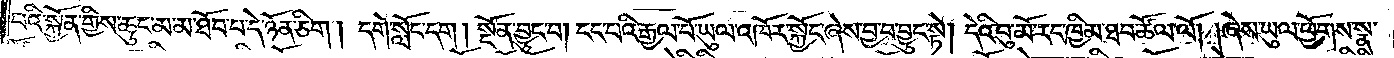པའི་སྐྱོན་གྱིས་ཆུང་མ་མ་ཐོབ་པ་དེ་ཉོན་ཅིག །དགེ་སློང་དག །སྔོན་བྱུང་བ། ངང་པའི་རྒྱལ་པོ་ཡུལ་འཁོར་སྐྱོང་ཞེས་བྱ་བ་བྱུང་སྟེ། དེའི་བུ་མོ་རང་ཁྱིམ་ཐབ་ཚོལ་ལོ། །ཞེས་ཡུལ་ཕྱོགས་སྣ་
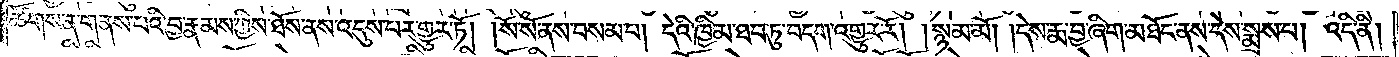ཚོགས་ན་གནས་པའི་བྱ་རྣམས་ཀྱིས་ཐོས་ནས་འདུས་པར་གྱུར་ཏོ། །སོ་སོ་ནས་བསམ་པ། དེའི་ཁྱིམ་ཐབ་ཏུ་བདག་འགྱུར་རོ། །སྙམ་མོ། །དེས་རྨ་བྱ་ཞིག་མཐོང་ནས་དེས་སྨྲས་པ། འདི་ནི།
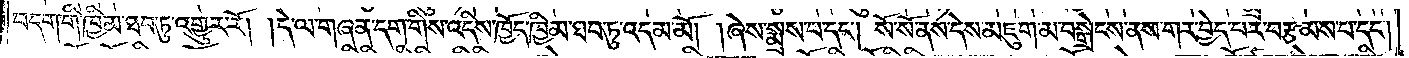བདག་གི་ཁྱིམ་ཐབ་ཏུ་འགྱུར་རོ། །དེ་ལ་གཞན་དག་གིས་འདིས་ཁྱོད་ཁྱིམ་ཐབ་ཏུ་འདམ་མོ། །ཞེས་སྨྲས་པ་དང༌། སོ་སོ་ནས་དེས་མཇུག་མ་བསྒྲེངས་ནས་གར་བྱེད་པར་བརྩམས་པ་དང༌།
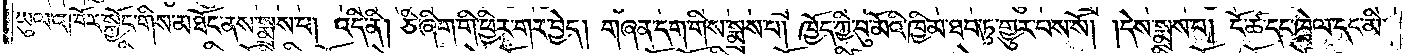ཡུལ་འཁོར་སྐྱོང་གིས་མཐོང་ནས་སྨྲས་པ། འདི་ནི། ཅི་ཞིག་གི་ཕྱིར་གར་བྱེད། གཞན་དག་གིས་སྨྲས་པ། ཁྱོད་ཀྱི་བུ་མོའི་ཁྱིམ་ཐབ་ཏུ་གྱུར་པས་སོ། །དེས་སྨྲས་པ། ངོ་ཚ་དང་ཁྲེལ་དང་མི་
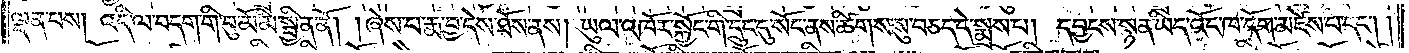ལྡན་པས། འདི་ལ་བདག་གི་བུ་མོ་མི་སྦྱིན་ནོ། །ཞེས་པ་རྨ་བྱ་དེས་ཐོས་ནས། ཡུལ་འཁོར་སྐྱོང་གི་དྲུང་དུ་སོང་ནས་ཚིགས་སུ་བཅད་དེ་སྨྲས་པ། དབྱངས་སྙན་ཡིད་འོང་ཁ་དོག་མཛེས་པ་དང༌། །
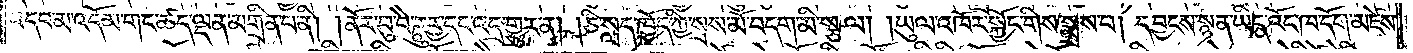འདབ་མ་འདོམ་གང་ཚད་ལྡན་མགྲིན་པ་ནི། །ནོར་བུ་བཻ་ཌཱུཪྻ་དང་འདྲ་གྱུར་ན། །ཅི་སླད་ཁྱོད་ཀྱི་སྲས་མོ་བདག་མི་སྩལ། །ཡུལ་འཁོར་སྐྱོང་གིས་སྨྲས་པ། དབྱངས་སྙན་ཡིད་འོང་ཁ་དོག་མཛེས་
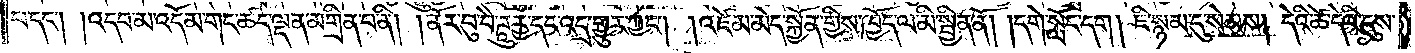པ་དང༌། །འདབ་མ་འདོམ་གང་ཚད་ལྡན་མགྲིན་པ་ནི། །ནོར་བུ་བཻ་ཌཱུཪྻ་དང་འདྲ་གྱུར་ཀྱང༌། །འཛེམ་མེད་སྐྱོན་གྱིས་ཁྱོད་ལ་མི་སྦྱིན་ནོ། །དགེ་སློང་དག །ཇི་སྙམ་དུ་སེམས། དེའི་ཚེ་དེའི་དུས་
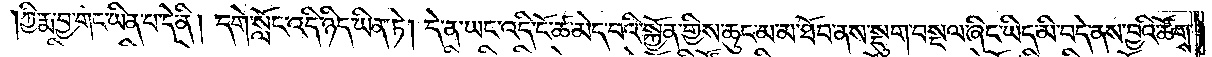ཀྱི་རྨ་བྱ་གང་ཡིན་པ་དེ་ནི། དགེ་སློང་འདི་ཉིད་ཡིན་ཏེ། དེ་ན་ཡང་འདི་ངོ་ཚ་མེད་པའི་སྐྱོན་གྱིས་ཆུང་མ་མ་ཐོབ་ནས་སྡུག་བསྔལ་ཞིང་ཡིད་མི་བདེ་ནས་བྱའི་ཚོགས
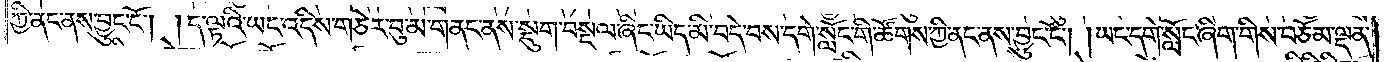ཀྱི་ནང་ནས་བྱུང་ངོ༌། །ད་ལྟའི་ཡང་འདིས་གཅེར་བུ་མ་གནང་ནས་སྡུག་བསྔལ་ཞིང་ཡིད་མི་བདེ་བས་དགེ་སློང་གི་ཚོགས་ཀྱི་ནང་ནས་བྱུང་ངོ༌། །ཡང་དགེ་སློང་ཞིག་གིས་བཅོམ་ལྡན་
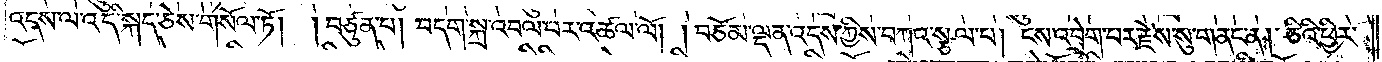འདས་ལ་འདི་སྐད་ཅེས་གསོལ་ཏོ། །བཙུན་པ། བདག་སྐྲ་འབལ་བར་འཚལ་ལོ། །བཅོམ་ལྡན་འདས་ཀྱིས་བཀའ་སྩལ་པ། ངས་འབྲེག་པར་རྗེས་སུ་གནང་ན། ཅིའི་ཕྱིར་
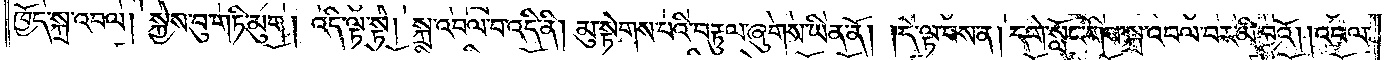ཁྱོད་སྐྲ་འབལ། སྐྱེས་བུ་གཏི་མུག །འདི་ལྟ་སྟེ། སྐྲ་འབལ་བ་འདི་ནི། མུ་སྟེགས་པའི་བརྟུལ་ཞུགས་ཡིན་ནོ། །དེ་ལྟ་བས་ན། དགེ་སློང་གིས་སྐྲ་འབལ་བར་མི་བྱའོ། །འབལ་
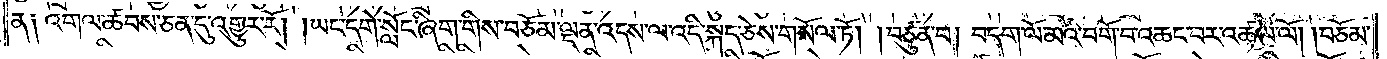ན༑ འགལ་ཚབས་ཅན་དུ་འགྱུར་རོ། །ཡང་དགེ་སློང་ཞིག་གིས་བཅོམ་ལྡན་འདས་ལ་འདི་སྐད་ཅེས་གསོལ་ཏོ། །བཙུན་པ། བདག་ལོ་མའི་བགོ་བ་འཆང་བར་འཚལ་ལོ། །བཅོམ་
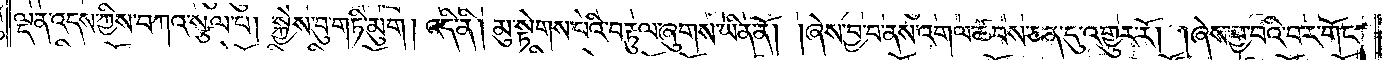ལྡན་འདས་ཀྱིས་བཀའ་སྩལ་པ། སྐྱེས་བུ་གཏི་མུག །འདི་ནི། མུ་སྟེགས་པའི་བརྟུལ་ཞུགས་ཡིན་ནོ། །ཞེས་བྱ་བ་ནས་འགལ་ཚབས་ཅན་དུ་འགྱུར་རོ། །ཞེས་བྱ་བའི་བར་གོང་
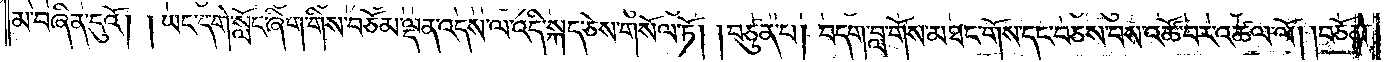མ་བཞིན་དུའོ། །ཡང་དགེ་སློང་ཞིག་གིས་བཅོམ་ལྡན་འདས་ལ་འདི་སྐད་ཅེས་གསོལ་ཏོ། །བཙུན་པ། བདག་བླ་གོས་མཐང་གོས་དང་བཅས་པས་འཚོ་བར་འཚལ་ལོ། །བཅོམ་
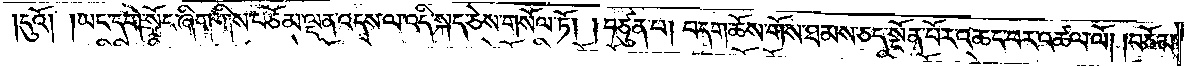དུའོ། །ཡང་དགེ་སློང་ཞིག་གིས་བཅོམ་ལྡན་འདས་ལ་འདི་སྐད་ཅེས་གསོལ་ཏོ། །བཙུན་པ། བདག་ཆོས་གོས་ཐམས་ཅད་སྔོན་པོར་འཆང་བར་འཚལ་ལོ། །བཅོམ་
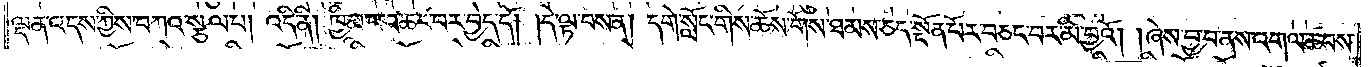ལྡན་འདས་ཀྱིས་བཀའ་སྩལ་པ། འདི་ནི། ཁྱིམ་པ་འཆང་བར་བྱེད་དོ། །དེ་ལྟ་བས་ན། དགེ་སློང་གིས་ཆོས་གོས་ཐམས་ཅད་སྔོན་པོར་བཅང་བར་མི་བྱའོ། །ཞེས་བྱ་བ་ནས་འགལ་ཚབས་
